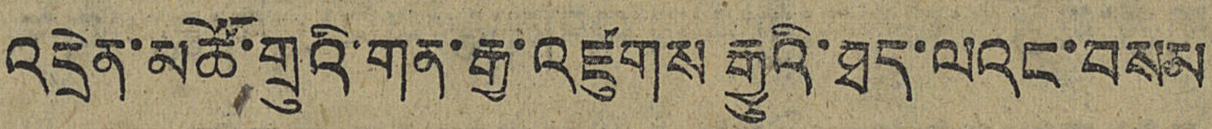འདྲེན་མཚོ་གྲུའི་གན་རྒྱ་འཛུགས་རྒྱུའི་ཐད་ལའང་བསམ
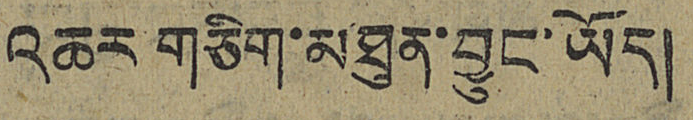འཆར་གཅིག་མཐུན་བྱུང་ཡོད།
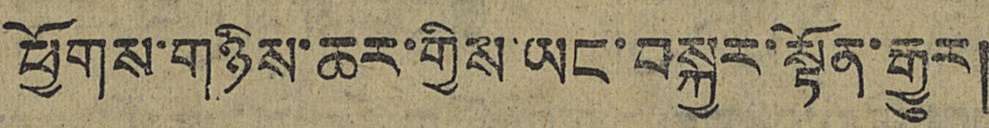ཕྱོགས་གཉིས་ཆར་གྱིས་ཡང་བསྐྱར་སྟོན་རྒྱུར།
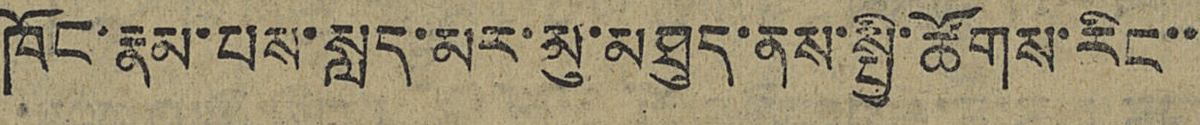ཁོང་རྣམ་པས་སླད་མར་མུ་མཐུད་ནས་སྤྱི་ཚོགས་རིང་་
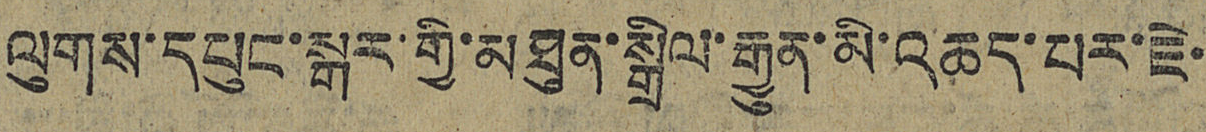ལུགས་དཔུང་སྒར་གྱི་མཐུན་སྒྲིལ་རྒྱུན་མི་འཆད་པར་ཇེ་
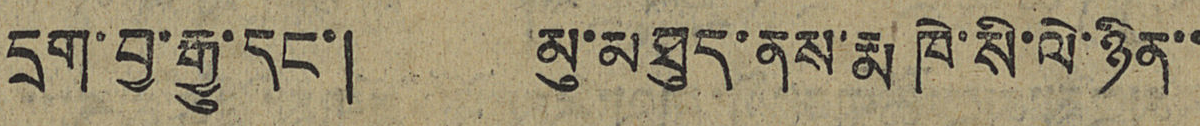དྲག་བྱ་རྒྱུ་དང་། མུ་མཐུད་ནས་རྨ ཁེ་སི་ལེ་ཉིན་་
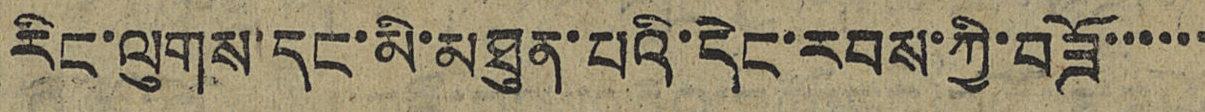རིང་ལུགས་དང་མི་མཐུན་པའི་དེང་རབས་ཀྱི་བཟོ་་་་་་
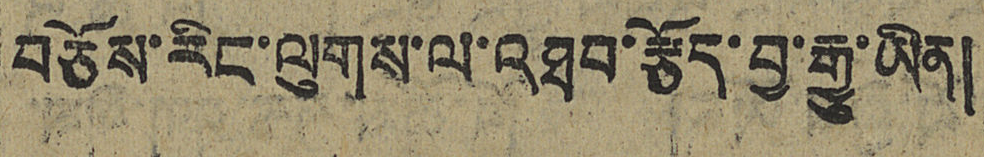བཅོས་རིང་ལུགས་ལ་འཐབ་རྩོད་བྱ་རྒྱུ་ཡིན།
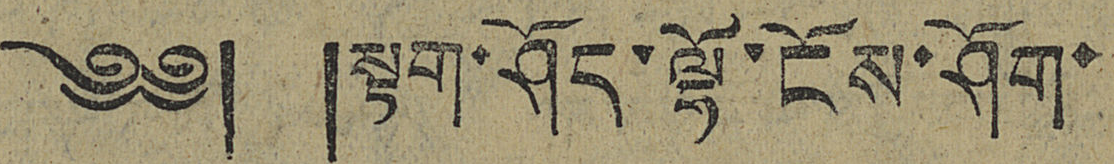༄༅། །སྟག་ཤོད་ལྷོ་ངོས་ཤོག་
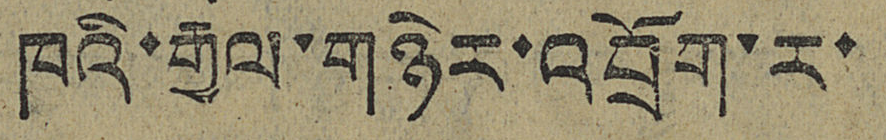ཁའི་རྒྱལ་གཉེར་འབྲོག་ར་
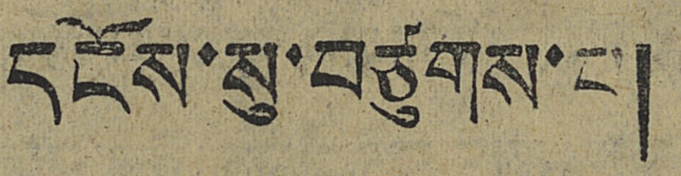དངོས་སུ་བཙུགས་པ།
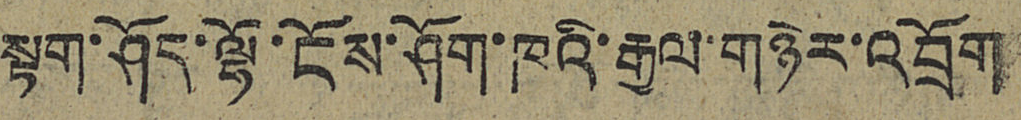སྟག་ཤོད་ལྷོ་ངོས་ཤོག་ཁའི་རྒྱལ་གཉེར་འབྲོག
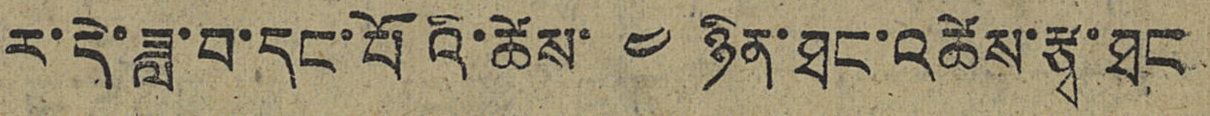ར་དེ་ཟླ་བ་དང་པོའི་ཚེས་ ༤ ཉིན་ཐང་འཚེས་རྩྭ་ཐང
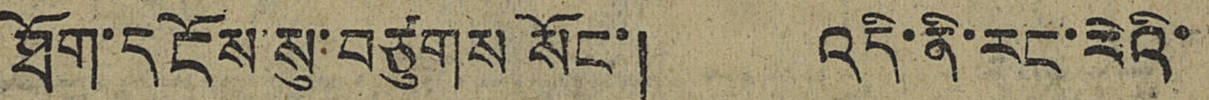ཐོག་དངོས་སུ་བཙུགས སོང་། འདི་ནི་རང་རེའི་
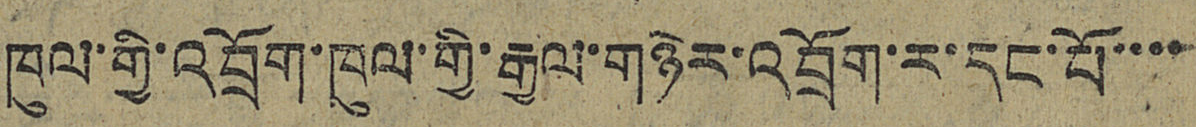ཁུལ་གྱི་འབྲོག་ཁུལ་གྱི་རྒྱལ་གཉེར་འབྲོག་ར་དང་པོ་་་་
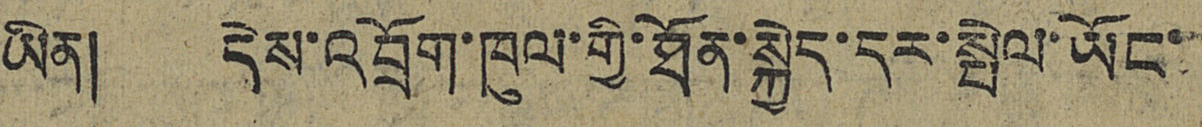ཡིན། དེས་འབྲོག་ཁུལ་གྱི་ཐོན་སྐྱེད་དར་སྤེལ་ཡོང་་
